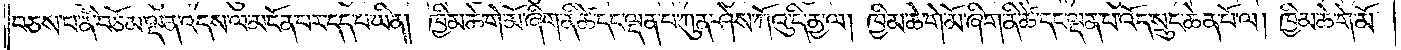བཅས་པ་ནི་བཅོམ་ལྡན་འདས་ལ་མངོན་པར་དད་པ་ཡིན། ཁྱིམ་ཆེ་གེ་མོ་ཞིག་ནི་ཚེ་དང་ལྡན་པ་ཀུན་ཤེས་ཀོའུ་དི་ནྱ་ལ། ཁྱིམ་ཆེ་གེ་མོ་ཞིག་ནི་ཚེ་དང་ལྡན་པ་འོད་སྲུང་ཆེན་པོ་ལ། ཁྱིམ་ཆེ་གེ་མོ་
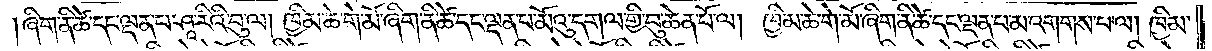ཞིག་ནི་ཚེ་དང་ལྡན་པ་ཤཱ་རིའི་བུ་ལ། ཁྱིམ་ཆེ་གེ་མོ་ཞིག་ནི་ཚེ་དང་ལྡན་པ་མོའུ་དགལ་གྱི་བུ་ཆེན་པོ་ལ། ཁྱིམ་ཆེ་གེ་མོ་ཞིག་ནི་ཚེ་དང་ལྡན་པ་མ་འགགས་པ་ལ། ཁྱིམ་
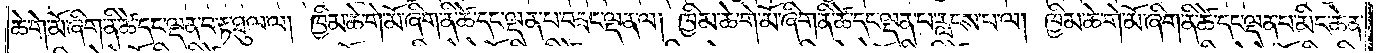ཆེ་གེ་མོ་ཞིག་ནི་ཚེ་དང་ལྡན་བ་རྟ་ཐུལ་ལ། ཁྱིམ་ཆེ་གེ་མོ་ཞིག་ནི་ཚེ་དང་ལྡན་པ་བཟང་ལྡན་ལ། ཁྱིམ་ཆེ་གེ་མོ་ཞིག་ནི་ཚེ་དང་ལྡན་པ་རླངས་པ་ལ། ཁྱིམ་ཆེ་གེ་མོ་ཞིག་ནི་ཚེ་དང་ལྡན་པ་མིང་ཆེན་
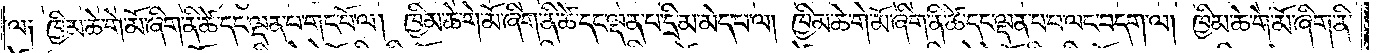ལ༑ ཁྱིམ་ཆེ་གེ་མོ་ཞིག་ནི་ཚེ་དང་ལྡན་པ་གང་པོ་ལ། ཁྱིམ་ཆེ་གེ་མོ་ཞིག་ནི་ཚེ་དང་ལྡན་པ་དྲི་མ་མེད་པ་ལ། ཁྱིམ་ཆེ་གེ་མོ་ཞིག་ནི་ཚེ་དང་ལྡན་པ་བ་ལང་བདག་ལ། ཁྱིམ་ཆེ་གེ་མོ་ཞིག་ནི་
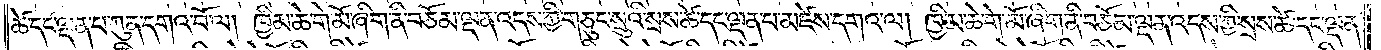ཚེ་དང་ལྡན་པ་ཀུན་དགའ་བོ་ལ། ཁྱིམ་ཆེ་གེ་མོ་ཞིག་ནི་བཅོམ་ལྡན་འདས་ཀྱི་གཅུང་སྲུའི་སྲས་ཚེ་དང་ལྡན་པ་མཛེས་དགའ་ལ། ཁྱིམ་ཆེ་གེ་མོ་ཞིག་ནི་བཅོམ་ལྡན་འདས་ཀྱི་སྲས་ཚེ་དང་ལྡན་
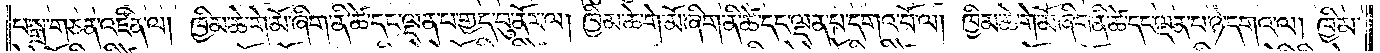པ་སྒྲ་གཅན་འཛིན་ལ། ཁྱིམ་ཆེ་གེ་མོ་ཞིག་ནི་ཚེ་དང་ལྡན་པ་གྱད་བུ་ནོར་ལ། ཁྱིམ་ཆེ་གེ་མོ་ཞིག་ནི་ཚེ་དང་ལྡན་པ་དགའ་བོ་ལ། ཁྱིམ་ཆེ་གེ་མོ་ཞིག་ནི་ཚེ་དང་ལྡན་པ་ཉེ་དགའ་ལ། ཁྱིམ་
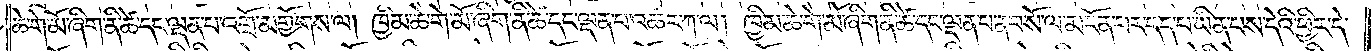ཆེ་གེ་མོ་ཞིག་ནི་ཚེ་དང་ལྡན་པ་འགྲོ་མགྱོགས་ལ། ཁྱིམ་ཆེ་གེ་མོ་ཞིག་ནི་ཚེ་དང་ལྡན་པ་འཆར་ཀ་ལ། ཁྱིམ་ཆེ་གེ་མོ་ཞིག་ནི་ཚེ་དང་ལྡན་པ་ནབ་སོ་ལ་མངོན་པར་དད་པ་ཡིན་པས་དེའི་ཕྱིར་དེ་
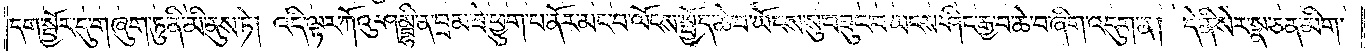དག་སྦྱོར་དུ་གཞུག་ཏུ་ནི་མི་ནུས་ཏེ། འདི་ལྟར་ཀོའུ་ཤམྦྷི་ན་བྲམ་ཟེ་ཕྱུག་པ་ནོར་མང་བ་ལོངས་སྤྱོད་ཆེ་བ་ཡོངས་སུ་བཟུང་བ་ཡངས་ཤིང་རྒྱ་བ་ཆེ་བ་ཞིག་འདུག་ན། དེ་ནི་སེར་སྣ་ཅན་མིག་
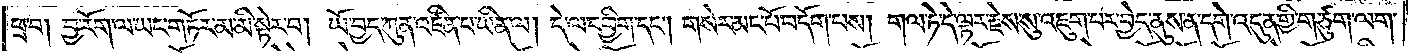ཕྲ་བ། བྱ་རོག་ལ་ཡང་གཏོར་མ་མི་སྟེར་བ། ཡོ་བྱད་ཀུན་འཛིན་པ་ཡིན་ལ། དེ་ལ་དབྱིག་དང༌། གསེར་མང་པོ་བདོག་པས། གལ་ཏེ་དེ་ལྟར་རྗེས་སུ་འཇུག་པར་བྱེད་ནུས་ན་དགེ་འདུན་གྱི་གཙུག་ལག་
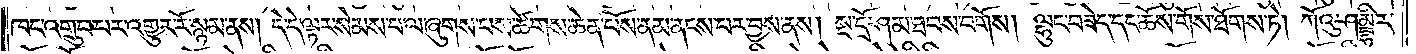ཁང་འགྲུབ་པར་འགྱུར་རོ་སྙམ་ནས། དེ་དེ་ལྟར་སེམས་པ་ལ་ཞུགས་པས་ཚེགས་ཆེན་པོས་ནམ་ནངས་པར་བྱས་ནས། སྔ་དྲོ་ཤམ་ཐབས་བགོས། ལྷུང་བཟེད་དང་ཆོས་གོས་ཐོགས་ཏེ། ཀོའུ་ཤམྦྷི་ར་
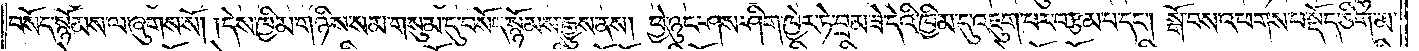བསོད་སྙོམས་ལ་ཞུགས་སོ། །དེས་ཁྱིམ་གཉིས་སམ་གསུམ་དུ་བསོད་སྙོམས་རྒྱུས་ནས། ཕྱེ་ཉུང་ཤས་ཤིག་ཁྱེར་ཏེ་བྲམ་ཟེ་དེའི་ཁྱིམ་དུ་འཇུག་པར་བརྩམ་པ་དང༌། སྒོ་བས་འཕགས་པ་སྡོད་ཅིག་མ་
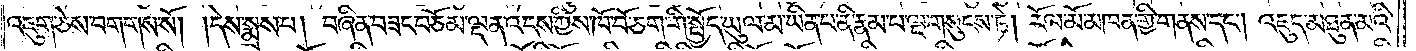འཇུག་ཅེས་བགགས་སོ། །དེས་སྨྲས་པ། བཞིན་བཟང་བཅོམ་ལྡན་འདས་ཀྱིས་ཁོ་བོ་ཅག་གི་སྤྱོད་ཡུལ་མ་ཡིན་པ་ནི་རྣམ་པ་ལྔ་གསུངས་ཏེ། རོལ་མོ་མཁན་གྱི་གནས་དང༌། འཇུད་མཐུན་མའི་
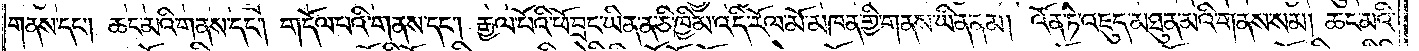གནས་དང༌། ཆང་མའི་གནས་དང༌། གདོལ་པའི་གནས་དང༌། རྒྱལ་པོའི་ཕོ་བྲང་ཡིན་ན་ཅི་ཁྱིམ་འདི་རོལ་མོ་མཁན་གྱི་གནས་ཡིན་ནམ། འོན་ཏེ་འཇུད་མཐུན་མའི་གནས་སམ། ཆང་མའི་
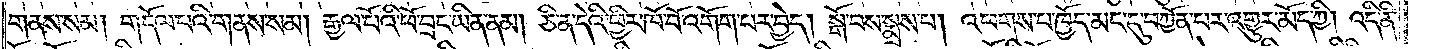གནས་སམ། གདོལ་པའི་གནས་སམ། རྒྱལ་པོའི་ཕོ་བྲང་ཡིན་ནམ། ཅི་ན་དེའི་ཕྱིར་ཁོ་བོ་འགོག་པར་བྱེད། སྒོ་བས་སྨྲས་པ། འཕགས་པ་ཁྱོད་མང་དུ་བཀྱོན་པར་འགྱུར་མོད་ཀྱི། འདི་ནི་
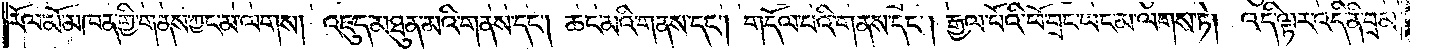རོལ་མོ་མཁན་གྱི་གནས་ཀྱང་མ་ལགས། འཇུད་མཐུན་མའི་གནས་དང༌། ཆང་མའི་གནས་དང༌། གདོལ་པའི་གནས་དང༌། རྒྱལ་པོའི་ཕོ་བྲང་ཡང་མ་ལགས་ཏེ། འདི་ལྟར་འདི་ནི་བྲམ་
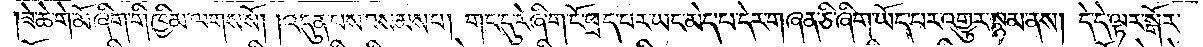ཟེ་ཆེ་གེ་མོ་ཞིག་གི་ཁྱིམ་ལགས་སོ། །འདུན་པས་བསམས་པ། གང་དུ་རེ་ཞིག་ངོ་ཕྲད་པར་ཡང་མེད་པ་དེར་གཞན་ཅི་ཞིག་ཡོད་པར་འགྱུར་སྙམ་ནས། དེ་དེ་ལྟར་སྒོར་
